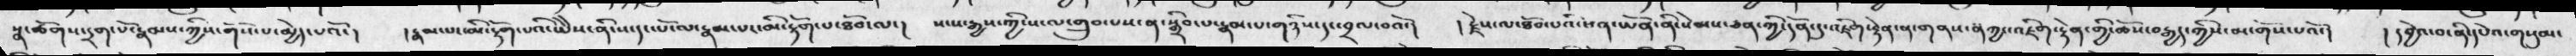སྣ་ཚོགས་དྲག་པོ་རྣམས་ཀྱིས་གོས་པ་མྱེད་པའོ་།  །རྣམ་པར་མི་རྟོག་པའི་ཡཻས་ནི་ས་དང་པོ་ལ་རྣམ་པར་མི་རྟོག་པ་ཐོབ་ལ་།  སངས་རྒྱས་ཀྱི་ས་ལ་གྲུབ་པས་ན་སྒྲིབ་པ་རྣམ་པ་གཉིས་དང་བྲལ་བའོ་།  །རྗེས་ལ་ཐོབ་པའི་ཕན་ཡོན་ནི་སེམས་ཅན་ཀྱི་དོན་དུ་འཇིག་རྟེན་ན་གནས་ནཾཀྱང་འཇིག་རྟེན་གྱི་ཆོས་བརྒྱད་ཀྱིས་མ་གོས་པའོ་།  །དབྱེའ་བ་ནི་དཔེའ་གསུམ་
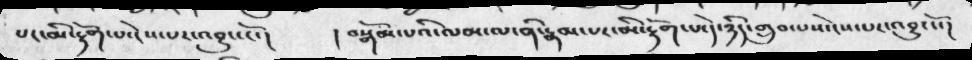པར་མི་རྟོག་པ་ངེས་པར་འབྱུང་ངོ་།   །བསྒོམ་པའི་ལམ་ལ་ནི་རྣམ་པར་མི་རྟོག་པ་དེ་ཉིད་གྲུབ་པས་ངེས་པར་འབྱུང་ངོ་།
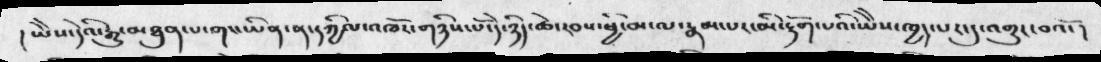།ཡཻས་དེའི་རྒྱུ་མཐུན་པ་གང་ཡིན་ན་དཀྱིལ་འཁོར་གཉིས་པོ་དེ་ཉིད་ཚེ་རབས་ཕྱི་མ་ལ་རྣམ་པར་མི་རྟོག་པའི་ཡཻས་ཁྱད་པར་དུ་འགྱུར་བའོ་།
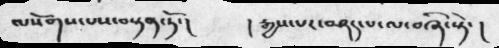ལསོགས་པས་བསྟན་ཏོ་།    །རྒྱས་པར་བཤད་པ་ལ་བཞི་སྟེ་།
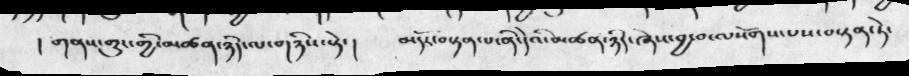།  གནས་གྱུར་གྱི་མཚན་ཉིད་ལ་གཉིས་སྟེ་།  མདོར་བསྟན་པ་ནི་དེའི་མཚན་ཉིད་ཞེས་བྱ་བ་ལསོགས་པས་བསྟན་ཏེ་
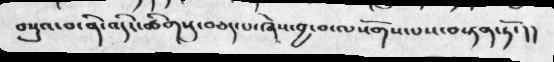བསྡུའ་བ་ནི་འདིར་ཚིགསུ་བཅད་པ་ཞེས་བྱ་བ་ལསོགས་པས་བསྟན་ཏོ་།།
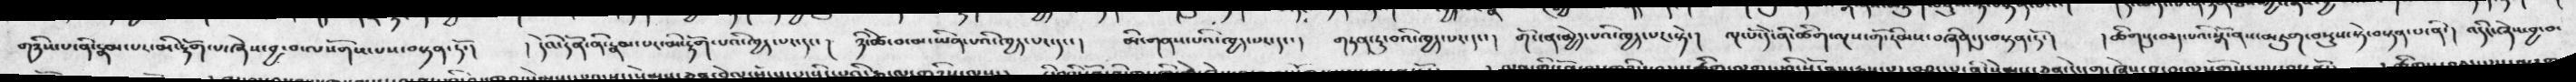གཉིས་པ་ནི་རྣམ་པར་མི་རྟོག་པ་ཞེས་བྱ་བ་ལསོགས་པས་བསྟན་ཏོ་།  ། དེའི་དོན་ནི་རྣམ་པར་མི་རྟོག་པའི་ཁྱད་པར་དང་།   ཉི་ཚེ་བ་མ་ཡིན་པའི་ཁྱད་པར་དང་།  མི་གནས་པའི་ཁྱད་པར་དང་།  གཏན་དུ་བའི་ཁྱད་པར་དང་།  གོང་ན་མྱེད་པའི་ཁྱད་པར་སྟེ་།  ལྔ་པོ་དེ་ནི་ཚིག་ལྔས་གོ་རིམས་བཞིན་དུ་བསྟན་ཏོ་།  །  ཚིགསུ་བཅད་པའི་སྒོ་ནས་མཇུག་བསྡུས་སྟེ་བསྟན་པ་ནི་།  འདིར་ཞེས་བྱ་བ་
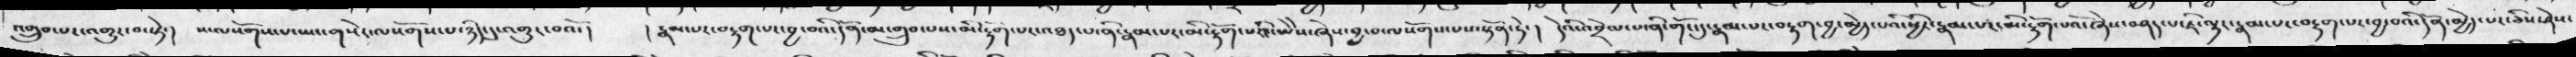འགྲུབ་པར་འགྱུར་བ་སྟེ་།  ས་ལསོགས་པ་ཡང་གསེར་ལསོགས་པ་ཉིད་དུ་འགྱུར་བའོ་།  །རྣམ་པར་བརྟག་པར་བྱ་བའི་དོན་མ་གྲུབ་པས་མི་རྟོག་པར་འཐད་པ་ནི་རྣམ་པར་མི་རྟོག་པའི་ཡཻས་བྱ་བ་ལསོགས་པས་སྟོན་ཏེ་།  དེའི་འབྲེལ་པ་ནི་གོང་དུ་རྣམ་པར་བརྟག་བྱ་མྱེད་པའི་ཕྱིར་རྣམ་པར་མི་རྟོག་པའོ་ཞེས་བཤད་པ་ཇི་ལྟར་རྣམ་པར་བརྟག་པར་བྱ་བའི་དོན་མྱེད་པར་ཅིས་ཤེས་
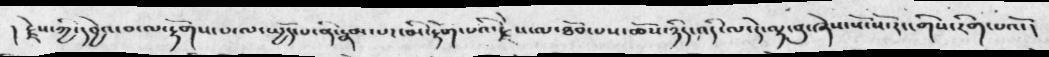། རྗེས་ཀྱི་དབྱེའ་བ་ལ་རྟོགས་པ་ལ་སྤྱོད་པ་ནི་རྣམ་པར་མི་རྟོག་པའི་རྗེས་ལ་ཐོབ་པས་ཆོས་ཉིད་འདི་ལ་དེ་ལྟ་བུ་ཞེས་སོ་སོ་རང་གིས་རིག་པའོ་།
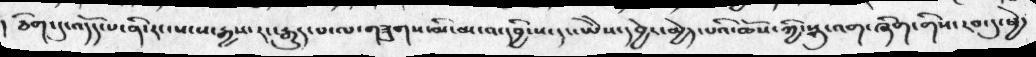། ཅིག་དུ་འདོད་པ་ནི་རང་སངས་རྒྱས་རང་རྒྱུད་པ་ལ་གཟུགས་མི་མངའ་བ་དབྱིངས་ཡཻས་དབྱེར་མྱེད་པའི་ཆོས་ཀྱི་སྐུ་འག་ཞིག་གིས་རབ་དུ་ཕྱེ་
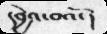དབྱེའ་བའོ་ །
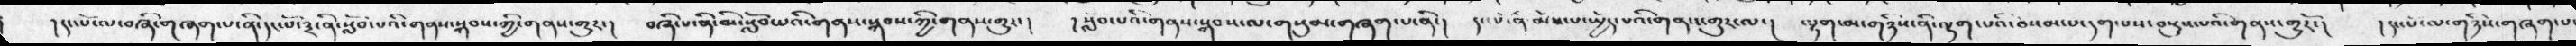།  དང་པོ་ལ་བཞི་གཞག་པ་ནི་དང་པོ་༣་ནི་སློབ་པའི་གནས་སྐབས་ཀྱི་གནས་གྱུར་།   བཞི་པ་ནི་མི་སློབ་པའི་གནས་སྐབས་ཀྱི་གནས་གྱུར་།   ། སློབ་པའི་གནས་སྐབས་ལ་གསུམ་གཞག་པ་ནི་།   དང་པོ་ནི་མོས་པ་ཡྱོད་པའི་གནས་གྱུར་ལ་།    ལྷག་མ་གཉིས་ནི་ལྷག་པའི་བསམ་པ་དག་པས་བསྡུས་པའི་ཕྱིརོ་།    ། དང་པོ་ལ་གཉིས་གཞག་པ་
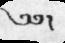༄༅།
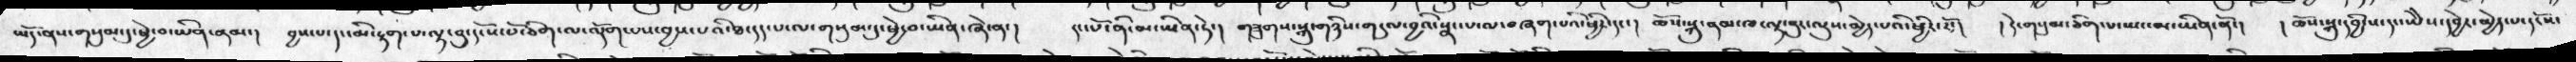ཡོད་ནས་གསུམ་དུ་ཕྱེ་བ་ཡིན་ནམ་།  བྱས་པ་དང་མི་རྟག་པ་ལྟ་བུ་དངོས་པོ་ཅིག་ལ་ལྡོག་པས་བྱས་པའི་ཐ་དད་པ་ལ་གསུམ་དུ་ཕྱེ་བ་ཡིན་ཞེ་ན་།  དང་པོ་ནི་མ་ཡིན་ཏེ་།  གཟུགས་སྐུ་གཉིས་གདུལ་བྱའི་སྣང་པ་ལ་བཞག་པའི་ཕྱིར་དང་།  ཆོས་སྐུ་ནམ་ཁ་ལྟ་བུར་ལུས་མྱེད་པའི་ཕྱིར་རོ་།  །དེ་གསུམ་ཅིག་པ་ཡང་མ་ཡིན་ནོ་།  །ཆོས་སྐུ་དབྱིངས་དང་ཡཻས་དབྱེར་མྱེད་པ་དངོས་
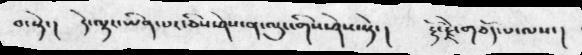བ་སྟེ་།  དེ་ལྟར་ཡིན་པར་ཅིས་ཤེས་ན་ལུང་གིས་ཤེས་སྟེ་།  རྡོ་རྗེ་གཅོད་པ་ལས་།
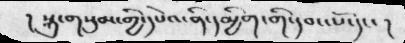།སྐུ་གསུམ་གྱི་དཔེའ་ནི་དམྱིག་གི་དབང་པོ་དང་།
